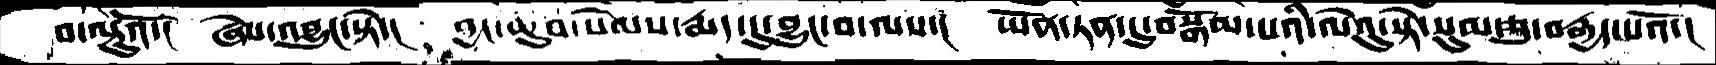བ་ལྟུའོ་།  ཞེས་འབྱུང་སྟེ་།  བྱང་ཆུབ་སེམས་རྨད་དུ་བྱུང་བ་ལས་།  ཡོན་ཏན་དུ་བསྒོམ་པའི་ལེའུ་སྟེ་སུམ་ཅུ་བརྒྱད་པའོ་།
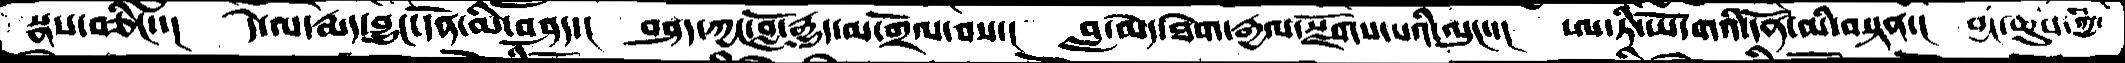སྣས་བཅིང་་།  དེ་ལ་རྨད་བྱུང་དོན་མི་བཤད་།  བཤད་ཀྱང་བློ་རྒྱུད་མ་གྲོལ་བས་།  བླ་མེད་ཐེག་རྒྱལ་སྫོགས་པའི་ལུང་་།  ཨ་ཏི་ཡོ་གའི་དོན་མི་བསྟན་། བྱང་ཆུབ་ཀྱི་
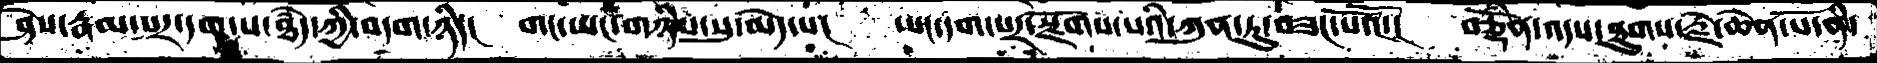ཤེས་རྣམ་པར་དག་པ་ཐཾད་ཀྱི་བདག་ཉིད་།  གང་ཡང་གཉིས་སུ་མེད་པ་།  ཡང་དག་པར་སྫོགས་པའི་ཀུན་ཏུ་བཟང་པོའོ་།  བཅྡོཾན་འདས་ཐུགས་རྗེ་ཆེན་པོ་ནི་
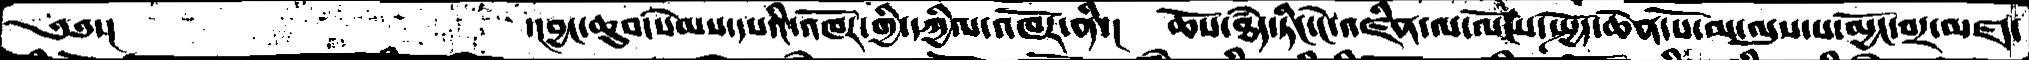༄༅་།         ་།བྱང་ཆུབ་སེམས་དཔའི་འཁོར་གྱི་དཀྱིལ་འཁོར་ནི་།  ཆོས་ཐཾད་ཏིང་ངེ་འཛིན་ལ་ལོངས་སྤྱོད་ཆེན་པོ་མ་ལུས་པ་མྱོང་བར་མཛད་
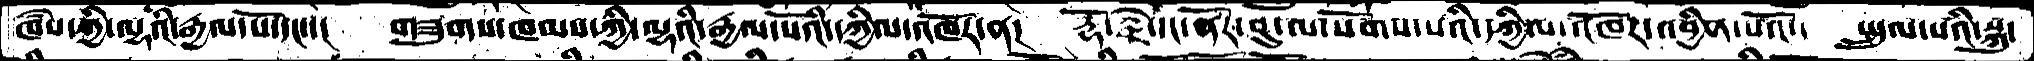ཁཾས་གྱི་ལྷའི་རྒྱལ་པོ་དང་་།  གཟུགས་ཁམས་ཀྱི་ལྷའི་རྒྱལ་པོའི་དཀྱིལ་འཁོར་ན།  རྡོ་རྗེ་དང་ནོར་བུ་ལ་སོགས་པའི་དཀྱིལ་འཁོར་འབྱིན་པའོ་།  སྤྲུལ་པའི་སྐུ་
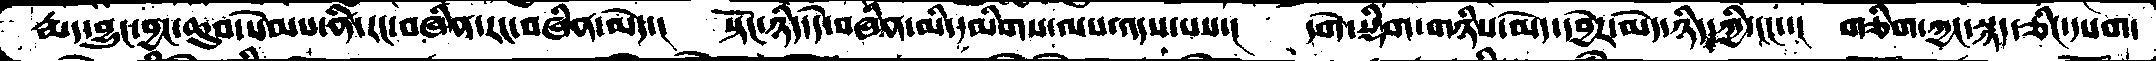རྨད་བྱུང་བྱང་ཆུབ་སེམས་ནི་རང་བཞིན་རང་བཞིན་མེད་། སྟོང་ཉིད་དེ་བཞིན་མི་དམིགས་ལས་འདས་པས་། དགེ་སྡིག་གཉིས་མེད་དབྱེར་མེད་ཉིད་ཀྱི་ངང་་། གཅིག་ཀྱང་སྐད་ཅིང་དཔག་
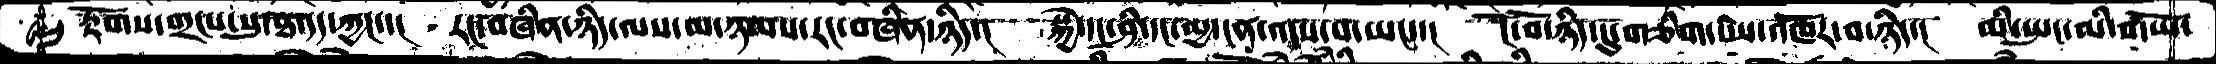རྟོགས་གྲངས་སུ་ཐ་དད་ཀྱང་་།  རང་བཞིན་ཉིད་ལས་མ་ཉམས་རང་བཞིན་ཉིད་།  སྐྱེ་དང་ཤི་དང་མྱ་ངན་འདས་པ་ཡང་་།  ངོ་བོ་ཉིད་དུ་གཅིག་པས་འཁོར་བ་ཉིད་།  མི་སྤང་མི་གཡོ་
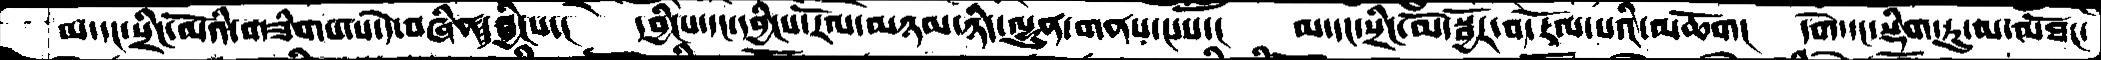མ་དང་སྲིང་མོའི་གཟིགས་པ་དེ་བཞིན་དབྱིངས་།  དབྱིངས་དང་དབྱིངས་རོལ་མཉམ་ཉིད་ལྷུན་གནས་པས་།  མ་དང་སྲིང་མོ་སྦྱོར་བ་རོལ་པའི་མཆོག།  དགེ་དང་སྡིག་ཏུ་མ་མཐོང་
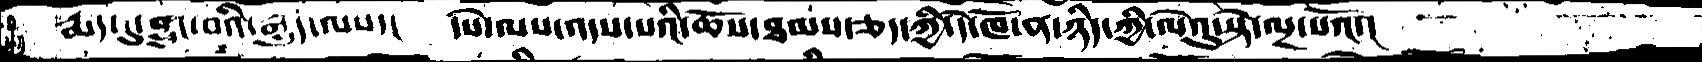རྨད་དུ་བྱུང་བའི་རྒྱུད་ལས་།  དཔེ་ལས་འདས་པའི་ཆོས་ཐམས་ཅད་ཀྱི་དེ་ཁོ་ན་ཉིད་ལེའུ་སྟེ་ལྔ་པའོ་།
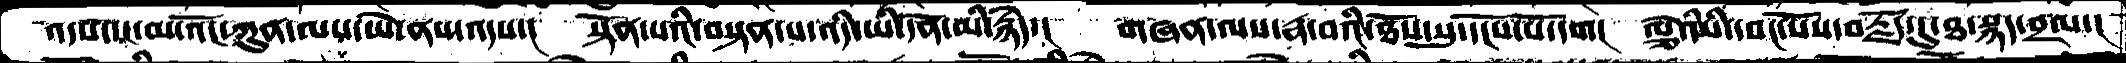འདས་པ་མ་འོང་ཀུན་ལས་ཡེ་ནས་འདས་།  སྟོན་པའི་བསྟན་པ་འདི་ཡི་དོན་མི་རྙེད་།  གཞན་ལས་རྣ་བའི་ཐོས་སུ་དངོས་པོ་དག།  ལྕེ་ཡི་དབང་པོས་བརྗོད་དུ་ཐ་སྙད་བྲལ་།
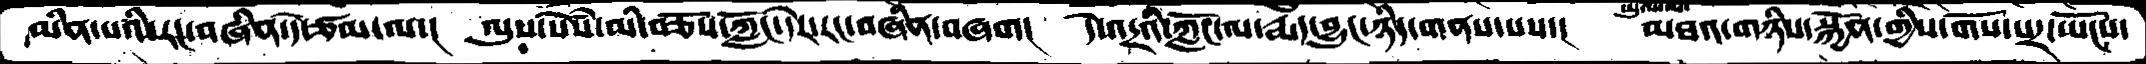མིན་པའི་རང་བཞིན་དེ་ཙམ་ལ་།  ལུས་སེཾས་མི་བཅོས་ཀློང་དེར་རང་བཞིན་བཞག།  དེ་འདྲའི་ཀློང་ལ་རྨད་བྱུང་ཉིད་གནས་པས་།  མཐའ་གཉིས་སྐྱོན་གྱིས་གོས་པར་ཡོངས་
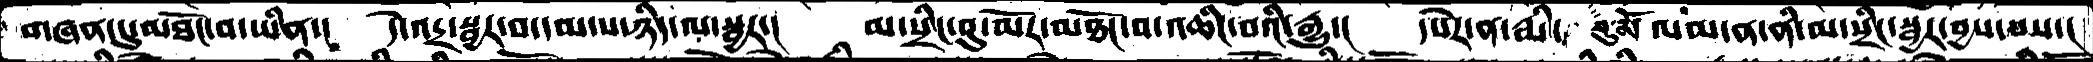གཞན་དུ་མཐོང་བ་ཡིན་།  དེ་འདྲ་སྦྱར་བ་དམ་པ་ཉིད་ལ་སྦྱར་།  མ་སྲིང་བུ་མོར་མཐོང་བ་འཆིང་བའི་རྒྱུ་།  དཔེར་ན་རྨི་བུ་མོ་ལམ་ན་ནི་མ་སྲིང་སྦྱར་བྱས་པས་།
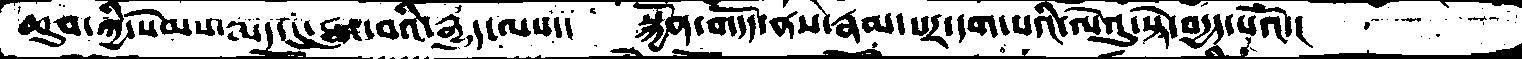ཆུབ་ཀྱི་སེམས་རྨད་དུ་བྱུང་བའི་རྒྱུད་ལས་།   སྐྱོན་གདོད་ནས་རྣམ་པར་དག་པའི་ལེའུ་སྟེ་བདྱད་པའོ་།
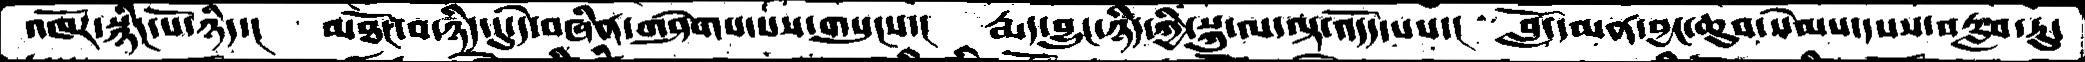འཁོར་སྙིང་པོ་ཉིད་།  མཐོང་བ་ཉིད་དུ་དེ་བཞིན་གཤེགས་པས་གསུངས་།  རྨད་བྱུང་ཉིད་ཀྱི་སྐུ་ལ་ལྟ་འདོད་པས་།  བློ་དམན་བྱང་ཆུབ་སེམས་དཔས་བརླབ་ཏུ་
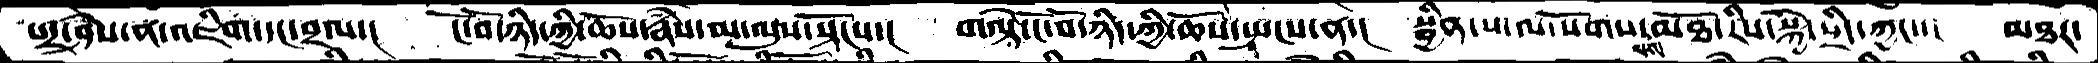པར་ཤེས་ན་འཇིག་དང་བྲལ་།  ངོ་བོ་ཉིད་ཀྱི་ཆོས་རྣཾས་མ་ལུས་སྟོངས་། གལྟེ་ངོ་བོ་ཉིད་ཀྱི་ཆོས་སྤངས་ན་། སྦྱིན་པ་ལ་སོགས་པས་མཐོ་རིས་སྐྱེ་སྲིད་ཀྱང་་།  མཐར་
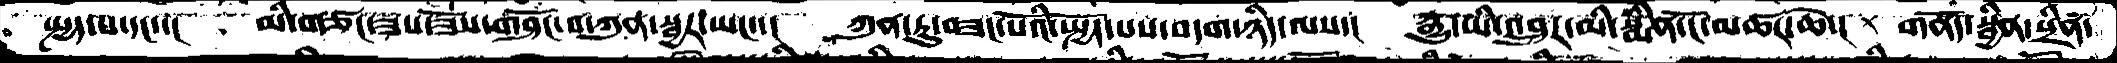སྤྱད་པ་དང་་།  མི་གཙང་ཟས་ཟོས་གཤོང་བ་ཀུན་སྦྱར་ཡང་་།  ཀུན་ཏུ་བཟང་པོའི་སྤྱོད་པས་བདག་ཉིད་ལས་།  རྒྱུ་ཡི་འབྲུར་མི་སྨིན་ངོ་མཚར་ཆེ་།  གནོད་སྦྱིན་སྲིན་
